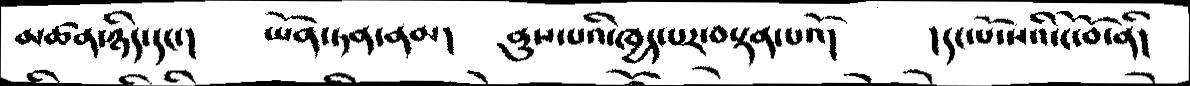མཚན་ཉིད་དང་།    ཡོན་ཏན་ནམ།    ནུས་པའི་ཁྱད་པར་བསྟན་པའོ།    །དང་པོ་སའི་ངོ་བོ་ནི།
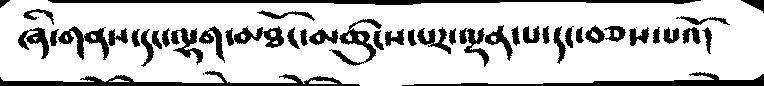ཞི་གནས་དང་ལྷག་མཐོང་མཚུངས་པར་ལྡན་པ་དང་བཅས་པའོ།
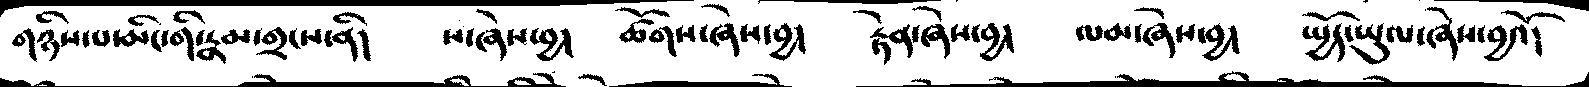གཉིས་པ་མིང་གི་རྣམ་གྲངས་ནི།  ས་ཞེས་བྱ།  ཚོགས་ཞེས་བྱ།  རྟེན་ཞེས་བྱ།   ལམ་ཞེས་བྱ།   སྤྱོད་ཡུལ་ཞེས་བྱའོ།
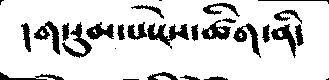།གསུམ་པ་ངེས་ཚིག་ནི།
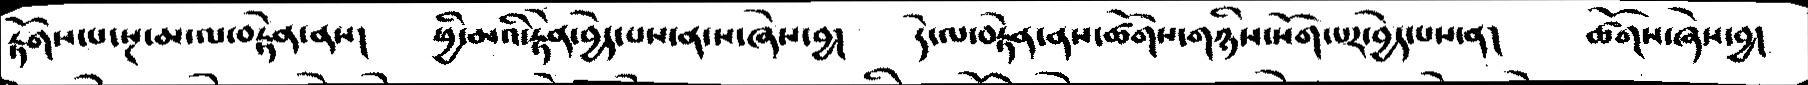རྟོགས་པ་སྔ་མ་ལ་བརྟེན་ནས།   ཕྱི་མའི་རྟེན་བྱེད་པས་ན་ས་ཞེས་བྱ།  དེ་ལ་བརྟེན་ནས་ཚོགས་གཉིས་སོག་པར་བྱེད་པས་ན།  ཚོགས་ཞེས་བྱ།
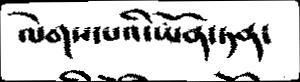ལེགས་པའི་ཡོན་ཏན་
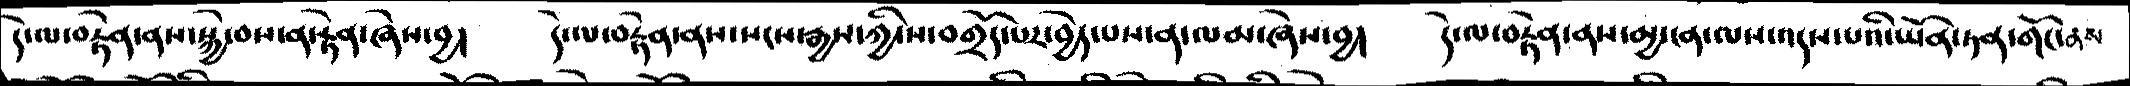དེ་ལ་བརྟེན་ནས་སྐྱེ་བས་ན་རྟེན་ཞེས་བྱ།  དེ་ལ་བརྟེན་ནས་སངས་རྒྱས་ཀྱི་ས་བགྲོད་པར་བྱེད་པས་ན་ལམ་ཞེས་བྱ།   དེ་ལ་བརྟེན་ནས་མྱ་ངན་ལས་འདས་པའི་ཡོན་ཏན་གོང་ནས
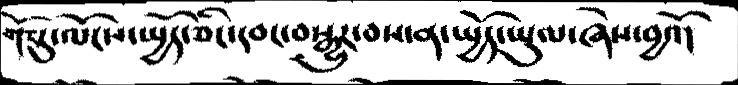གོང་དུ་ལོངས་སྤྱོད་ཅིང་དབང་བསྒྱུར་བས་ན་སྤྱོད་ཡུལ་ཞེས་བྱའོ།
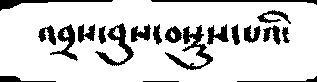འབྲས་བུས་བསྡུས་པའི་
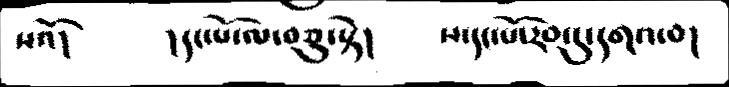སའོ།   །དང་པོ་ལ་བཅུ་སྟེ།  ས་དང་པོ་རབ་དུ་དགའ་བ།
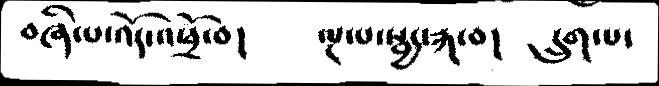བཞི་པ་འོད་འཕྲོ་བ།   ལྔ་པ་སྦྱང་རྐ་བ།  དྲུག་པ་
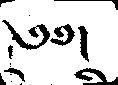༄༅།
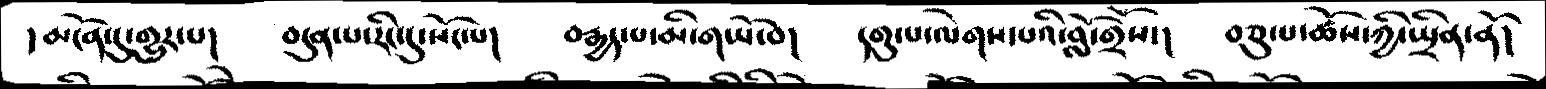།མངོན་དུ་གྱུར་པ།   བདུན་པ་རིང་དུ་སོང་པ།   བརྒྱད་པ་མི་གཡོ་བ།  དགུ་པ་ལེགས་པའི་བློ་གྲོས་།   བཅུ་པ་ཆོས་ཀྱི་སྤྲིན་ནོ།
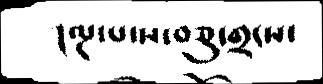།ལྔ་པ་ས་བཅུ་གྲངས་
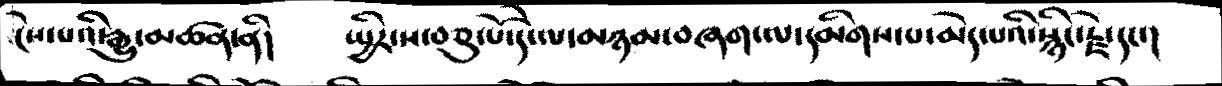ངེས་པའི་རྒྱུ་མཚན་ནི།   སྤྱིར་ས་བཅུ་པོ་དེ་ལ་མཉམ་བཞག་ལ་དམིགས་པ་མེད་པའི་སྙིང་རྗེ་དང་།
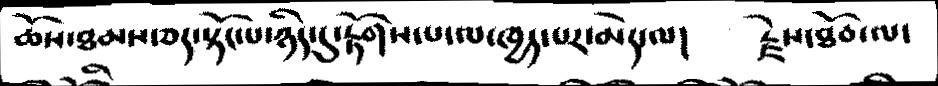ཆོས་ཐམས་ཅད་སྟོང་པ་ཉིད་དུ་རྟོགས་པ་ལ་ཁྱད་པར་མེད་ལ།   རྗེས་ཐོབ་ལ་
